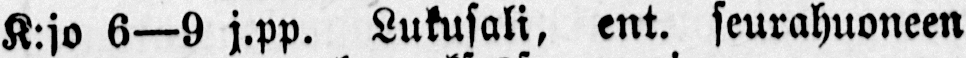K.jo 6—9 j.pp. Lukusali, ent. seurahuoneen
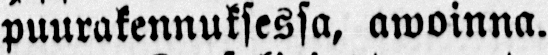puurakennuksessa, awoinna.
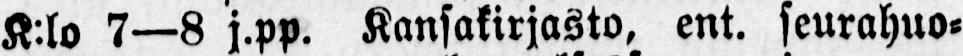K-lo 7—8 j.pp. Kansakirjasto, ent. seurahuo-
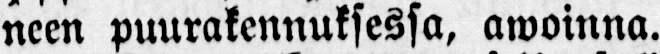neen puurakennuksessa, awoinna.
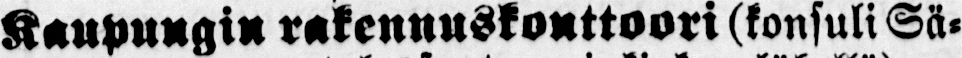Kaupungin rakennuskonttoori (konsuli Sä-
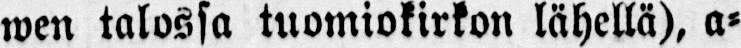wen talossa tuomiokirkon lähellä), a-
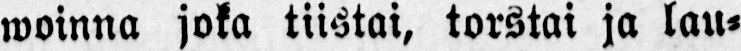woinna joka tiistai, torstai ja lau-
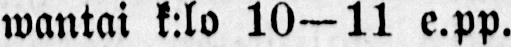wantai k:lo 10—11 e.pp.
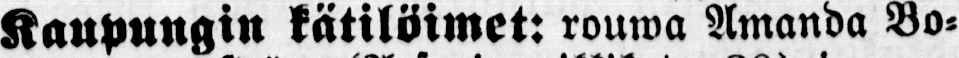Kaupungin kätilöimet: rouwa Amanda Bo-
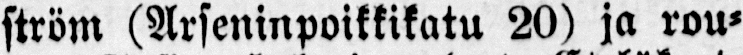ström (Arseninpoikkikatu 20) ja rou-
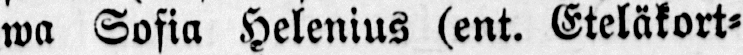wa Sofia Helenius (ent. Eteläkort-
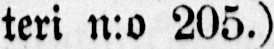teri n:o 205.)
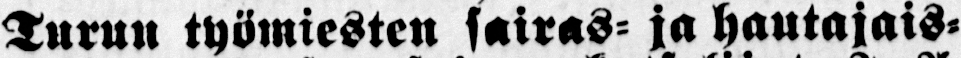Turun työmiesten sairas- ja hautajais-
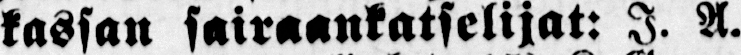kassan sairaankatselijat: I. A.
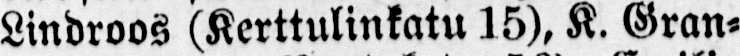Lindroos (Kerttulinkatu 15). K. Gran-
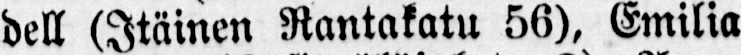dell (Itäinen Rantakatu 56), Emilia
